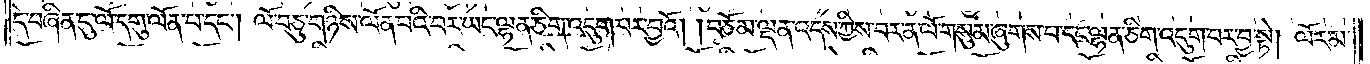དེ་བཞིན་དུ་ལོ་དགུ་ལོན་པ་དང༌། ལོ་བཅུ་གཉིས་ལོན་པའི་བར་ཡང་ལྷན་ཅིག་འདུག་པར་བྱའོ། །བཅོམ་ལྡན་འདས་ཀྱིས་བར་ན་ལོ་གསུམ་ཞུགས་པ་དང་ལྷན་ཅིག་འདུག་པར་བྱ་སྟེ། ལོར་མ་
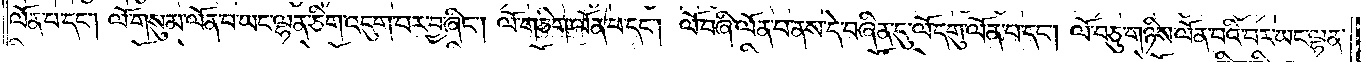ལོན་པ་དང༌། ལོ་གསུམ་ལོན་པ་ཡང་ལྷན་ཅིག་འདུག་པར་བྱ་ཞིང༌། ལོ་གཅིག་ལོན་པ་དང༌། ལོ་བཞི་ལོན་པ་ནས་དེ་བཞིན་དུ་ལོ་དགུ་ལོན་པ་དང༌། ལོ་བཅུ་གཉིས་ལོན་པའི་བར་ཡང་ལྷན་
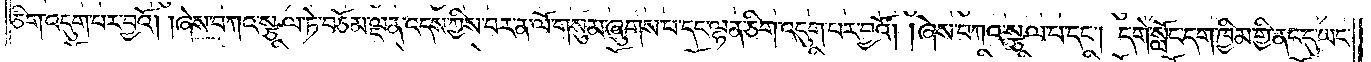ཅིག་འདུག་པར་བྱའོ། །ཞེས་བཀའ་སྩལ་ཏེ་བཅོམ་ལྡན་འདས་ཀྱིས་བར་ན་ལོ་གསུམ་ཞུགས་པ་དང་ལྷན་ཅིག་འདུག་པར་བྱའོ། །ཞེས་བཀའ་སྩལ་པ་དང༌། དགེ་སློང་དག་ཁྱིམ་གྱི་ནང་དུ་ཡང་
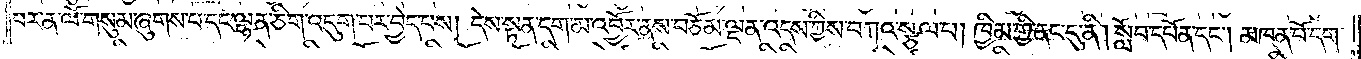བར་ན་ལོ་གསུམ་ཞུགས་པ་དང་ལྷན་ཅིག་འདུག་པར་བྱེད་པས། དེས་སྟན་དག་མ་འབྱོར་ནས་བཅོམ་ལྡན་འདས་ཀྱིས་བཀའ་སྩལ་པ། ཁྱིམ་གྱི་ནང་དུ་ནི། སློབ་དཔོན་དང༌། མཁན་པོ་དག་
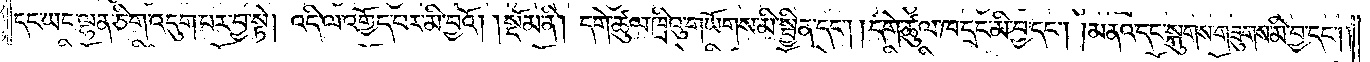དང་ཡང་ལྷན་ཅིག་འདུག་པར་བྱ་སྟེ། འདི་ལ་འགྱོད་པར་མི་བྱའོ།    །སྡོམ་ནི། དགེ་ཚུལ་ཁྲིའུ་གཡོགས་མི་སྦྱིན་དང༌། །དགེ་ཚུལ་ཁ་དྲང་མི་བྱ་དང༌། །མནའ་དང་སྐུགས་གཟུགས་མི་བྱ་དང༌། །
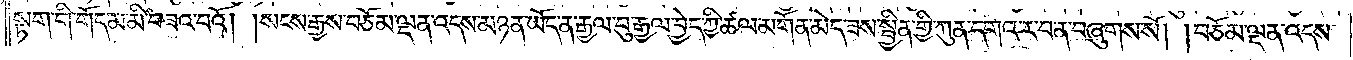སྟག་གི་གོད་མ་མི་བཟའ་བའོ། །སངས་རྒྱས་བཅོམ་ལྡན་འདས་མཉན་ཡོད་ན་རྒྱལ་བུ་རྒྱལ་བྱེད་ཀྱི་ཚལ་མགོན་མེད་ཟས་སྦྱིན་གྱི་ཀུན་དགའ་ར་བ་ན་བཞུགས་སོ། །བཅོམ་ལྡན་འདས་
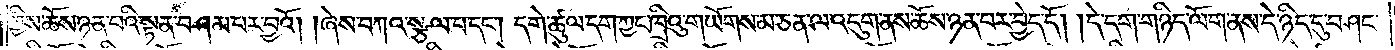ཀྱིས་ཆོས་ཉན་པའི་སྟན་བཤམ་པར་བྱའོ། །ཞེས་བཀའ་སྩལ་པ་དང༌། དགེ་ཚུལ་དག་ཀྱང་ཁྲིའུ་གཡོགས་མ་ཅན་ལ་འདུག་ནས་ཆོས་ཉན་པར་བྱེད་དོ། །དེ་དག་གཉིད་ལོག་ནས་དེ་ཉིད་དུ་བཤང་
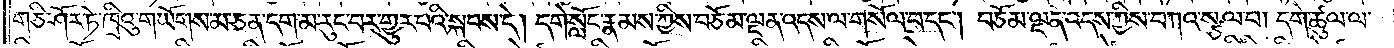གཅི་ཤོར་ཏེ་ཁྲིའུ་གཡོགས་མ་ཅན་དག་མ་རུང་བར་གྱུར་པའི་སྐབས་དེ། དགེ་སློང་རྣམས་ཀྱིས་བཅོམ་ལྡན་འདས་ལ་གསོལ་བ་དང༌། བཅོམ་ལྡན་འདས་ཀྱིས་བཀའ་སྩལ་པ། དགེ་ཚུལ་ལ་
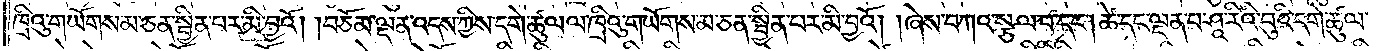ཁྲིའུ་གཡོགས་མ་ཅན་སྦྱིན་པར་མི་བྱའོ། །བཅོམ་ལྡན་འདས་ཀྱིས་དགེ་ཚུལ་ལ་ཁྲིའུ་གཡོགས་མ་ཅན་སྦྱིན་པར་མི་བྱའོ། །ཞེས་བཀའ་སྩལ་པ་དང༌། ཚེ་དང་ལྡན་པ་ཤཱ་རིའི་བུའི་དགེ་ཚུལ་
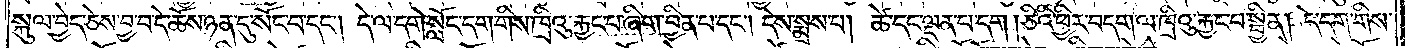སྐུལ་བྱེད་ཅེས་བྱ་བ་དེ་ཆོས་ཉན་དུ་སོང་བ་དང༌། དེ་ལ་དགེ་སློང་དག་གིས་ཁྲིའུ་རྐྱང་པ་ཞིག་བྱིན་པ་དང༌། དེས་སྨྲས་པ། ཚེ་དང་ལྡན་པ་དག །ཅིའི་ཕྱིར་བདག་ལ་ཁྲིའུ་རྐྱང་པ་སྦྱིན། དེ་དག་གིས་
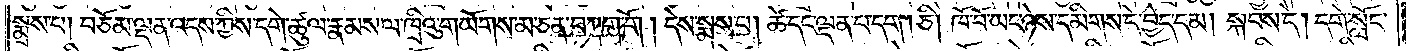སྨྲས་པ། བཅོམ་ལྡན་འདས་ཀྱིས་དགེ་ཚུལ་རྣམས་ལ་ཁྲིའུ་གཡོགས་མ་ཅན་བཀག་གོ །དེས་སྨྲས་པ། ཚེ་དང་ལྡན་པ་དག །ཅི། ཁོ་བོ་ཡང་ཉེས་དམིགས་དེ་བྱེད་དམ། སྐབས་དེ། དགེ་སློང་
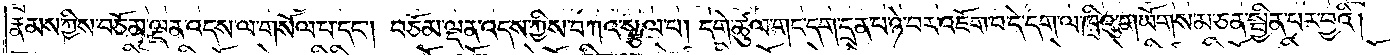རྣམས་ཀྱིས་བཅོམ་ལྡན་འདས་ལ་གསོལ་པ་དང༌། བཅོམ་ལྡན་འདས་ཀྱིས་བཀའ་སྩལ་པ། དགེ་ཚུལ་གང་དག་དྲན་པ་ཉེ་བར་འཇོག་པ་དེ་དག་ལ་ཁྲིའུ་གཡོགས་མ་ཅན་སྦྱིན་པར་བྱའི།
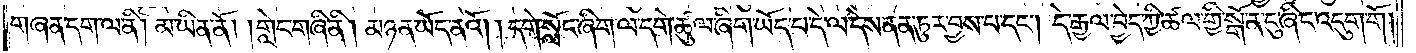གཞན་དག་ལ་ནི། མ་ཡིན་ནོ། །གླེང་གཞི་ནི། མཉན་ཡོད་ནའོ། །དགེ་སློང་ཞིག་ལ་དགེ་ཚུལ་ཞིག་ཡོད་པ་དེ་ལ་དེས་ནན་ཏུར་བྱས་པ་དང༌། དེ་རྒྱལ་བྱེད་ཀྱི་ཚལ་གྱི་སྒོ་ན་ངུ་ཞིང་འདུག་གོ །
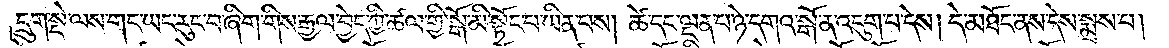དྲུག་སྡེ་ལས་གང་ཡང་རུང་བ་ཞིག་གིས་རྒྱལ་བྱེད་ཀྱི་ཚལ་གྱི་སྒོ་མི་སྟོང་བ་ཡིན་པས། ཚེ་དང་ལྡན་པ་ཉེ་དགའ་སྒོ་ན་འདུག་པ་དེས། དེ་མཐོང་ནས་དེས་སྨྲས་པ།
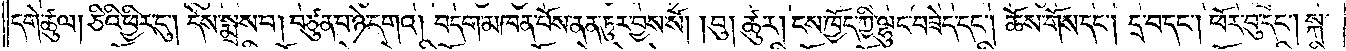དགེ་ཚུལ། ཅིའི་ཕྱིར་དུ། དེས་སྨྲས་པ། བཙུན་པ་ཉེ་དགའ། བདག་མཁན་པོས་ནན་ཏུར་བྱས་སོ། །བུ། ཚུར། ངས་ཁྱོད་ཀྱི་ལྷུང་བཟེད་དང༌། ཆོས་གོས་དང༌། དྲ་བ་དང༌། ཕོར་བུ་དང༌། སྐ་
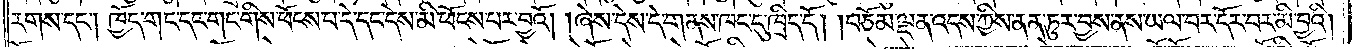རགས་དང༌། ཁྱོད་གང་དང་གང་གིས་ཕོངས་པ་དེ་དང་དེས་མི་ཕོངས་པར་བྱའོ། །ཞེས་དེས་དེ་གནས་ཁང་དུ་ཁྲིད་དོ། །བཅོམ་ལྡན་འདས་ཀྱིས་ནན་ཏུར་བྱས་ནས་ཡལ་བར་དོར་བར་མི་བྱའི།
